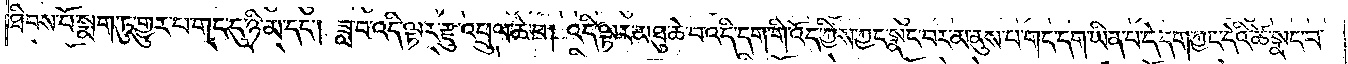ཐིབས་པོ་སྨག་ཏུ་གྱུར་པ་གང་དུ་ཉི་མ་དང༌། ཟླ་བ་འདི་ལྟར་རྫུ་འཕྲུལ་ཆེ་བ། འདི་ལྟར་མཐུ་ཆེ་བ་འདི་དག་གི་འོད་ཀྱིས་ཀྱང་སྣང་བར་མ་ནུས་པ་གང་དག་ཡིན་པ་དེ་དག་ཀྱང་དེའི་ཚེ་སྣང་བ་
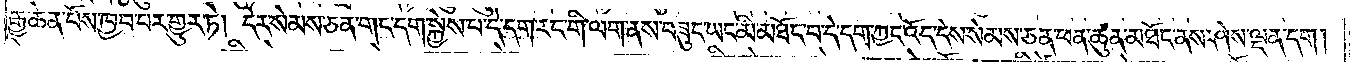རྒྱ་ཆེན་པོས་ཁྱབ་པར་གྱུར་ཏེ། དེར་སེམས་ཅན་གང་དག་སྐྱེས་པ་དེ་དག་རང་གི་ལག་ནས་བཟུང་ཡང་མི་མཐོང་བ་དེ་དག་ཀྱང་འོད་དེས་སེམས་ཅན་ཕན་ཚུན་མཐོང་ནས་ཤེས་ལྡན་དག།
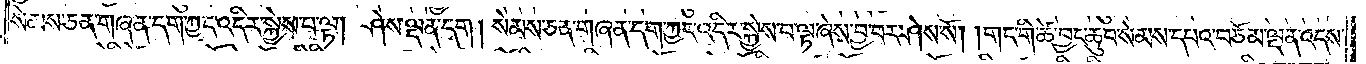སེམས་ཅན་གཞན་དག་ཀྱང་འདིར་སྐྱེས་པ་ལྟ། ཤེས་ལྡན་དག། སེམས་ཅན་གཞན་དག་ཀྱང་འདིར་སྐྱེས་པ་ལྟ་ཞེས་བྱ་བར་ཤེས་སོ། །གང་གི་ཚེ་བྱང་ཆུབ་སེམས་དཔའ་བཅོམ་ལྡན་འདས་
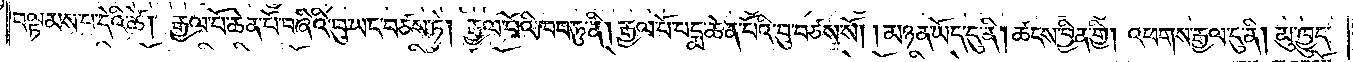བལྟམས་པ་དེའི་ཚེ། རྒྱལ་པོ་ཆེན་པོ་བཞིའི་བུ་ཡང་བཙས་ཏེ། རྒྱལ་པོའི་ཁབ་ཏུ་ནི། རྒྱལ་པོ་པདྨ་ཆེན་པོའི་བུ་བཙས་སོ། །མཉན་ཡོད་དུ་ནི། ཚངས་བྱིན་གྱི། འཕགས་རྒྱལ་དུ་ནི། མུ་ཁྱུད་
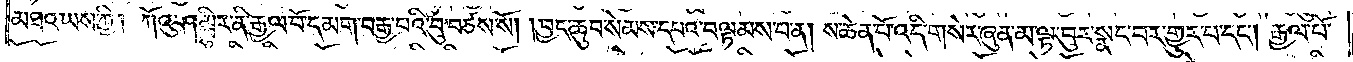མཐའ་ཡས་ཀྱི། ཀོའུ་ཤམྦྷིར་ནི་རྒྱལ་བོ་དམག་བརྒྱ་པའི་བུ་བཙས་སོ། །བྱང་ཆུབ་སེམས་དཔའ་བལྟམས་པ་ན། ས་ཆེན་པོ་འདི་གསེར་ཞུན་མ་ལྟ་བུར་སྣང་བར་གྱུར་པ་དང༌། རྒྱལ་པོ་
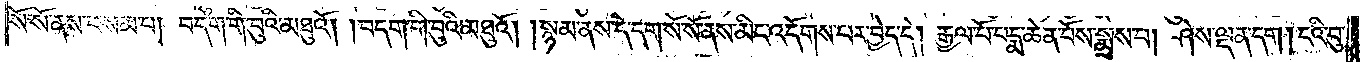སོ་སོ་ནས་བསམ་པ། བདག་གི་བུའི་མཐུའོ། །བདག་གི་བུའི་མཐུའོ། །སྙམ་ནས་དེ་དག་སོ་སོ་ནས་མིང་འདོགས་པར་བྱེད་དེ། རྒྱལ་པོ་པདྨ་ཆེན་པོས་སྨྲས་པ། ཤེས་ལྡན་དག །ངའི་བུ་
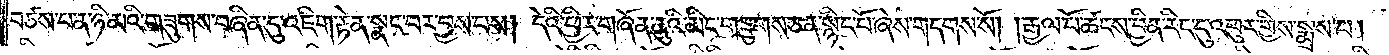བཙས་པ་ན་ཉི་མའི་གཟུགས་བཞིན་དུ་འཇིག་རྟེན་སྣང་བར་བྱས་པས། དེའི་ཕྱིར་གཞོན་ནུའི་མིང་གཟུགས་ཅན་སྙིང་པོ་ཞེས་གདགས་སོ། །རྒྱལ་པོ་ཚངས་བྱིན་རིང་དུ་འཕུར་གྱིས་སྨྲས་པ།
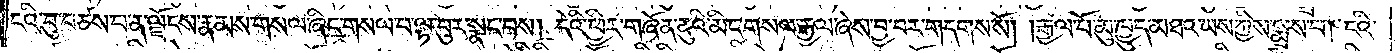ངའི་བུ་བཙས་པ་ན་ལྗོངས་རྣམས་གསལ་ཞིང་གསལ་བ་ལྟ་བུར་སྣང་བས། དེའི་ཕྱིར་གཞོན་ནུའི་མིང་གསལ་རྒྱལ་ཞེས་བྱ་བར་གདགས་སོ། །རྒྱལ་པོ་བུ་ཁྱུད་མཐའ་ཡས་ཀྱིས་སྨྲས་པ། ངའི་
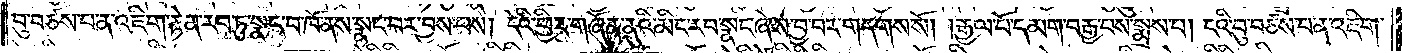བུ་བཙས་པ་ན་འཇིག་རྟེན་རབ་ཏུ་སྣང་བ་ཁོ་ནས་སྣང་བར་བྱས་པས། དེའི་ཕྱིར་གཞོན་ནུའི་མིང་རབ་སྣང་ཞེས་བྱ་བར་གདགས་སོ། །རྒྱལ་པོ་དམག་བརྒྱ་བས་སྨྲས་པ། ངའི་བུ་བཙས་པ་ན་འཇིག་
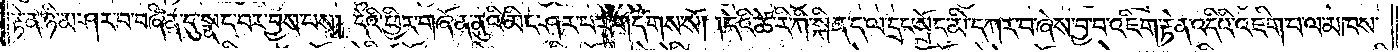རྟེན་ཉི་མ་ཤར་བ་བཞིན་དུ་སྣང་བར་བྱས་པས། དེའི་ཕྱིར་གཞོན་ནུའི་མིང་ཤར་པར་གདགས་སོ། །དེའི་ཚེ་རི་ཀི་སྐིན་ད་ལ་དྲང་སྲོང་མི་དཀར་བ་ཞེས་བྱ་བ་འཇིག་རྟེན་དེའི་འཇིག་པ་ལ་མཁས་
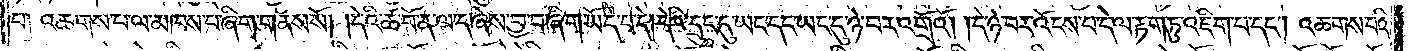པ། འཆགས་པ་ལ་མཁས་པ་ཞིག་གནས་སོ། །དེའི་ཚ་བོ་ན་ལ་ད་ཞེས་བྱ་བ་ཞིག་ཡོད་པ་དེ། དེའི་དྲུང་དུ་ཡང་དང་ཡང་དུ་ཉེ་བར་འགྲོའོ། །དེ་ཉེ་བར་འོངས་པ་དེ་ལ་རྟག་ཏུ་འཇིག་པ་དང༌། འཆགས་པའི་
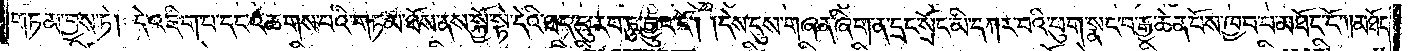གཏམ་བྱས་ཏེ། དེ་འཇིག་པ་དང་འཆགས་པའི་གཏམ་ཐོས་ནས་སྐྱོ་སྟེ་དེའི་ཐད་དུ་རབ་ཏུ་བྱུང་ངོ༌། །དེས་དུས་གཞན་ཞིག་ན་དྲང་སྲོང་མི་དཀར་བའི་ཕུག་སྣང་བ་རྒྱ་ཆེན་པོས་ཁྱབ་པ་མཐོང་ངོ༌། །མཐོང་
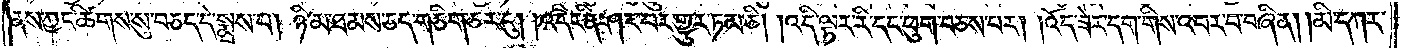ནས་ཀྱང་ཚིགས་སུ་བཅད་དེ་སྨྲས་པ། ཉི་མ་ཐམས་ཅད་གཅིག་ཅར་དུ། །འདིར་ནི་ཤར་བར་འགྱུར་ཏམ་ཅི། འདི་ལྟར་རི་དང་ཕུག་བཅས་པར། །འོད་ཟེར་དག་གིས་འབར་བ་བཞིན། །མི་དཀར་
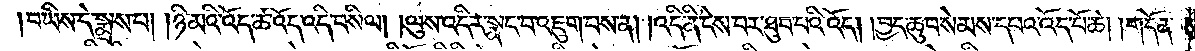བ་ཡིས་དེ་སྨྲས་པ། །ཉི་མའི་འོད་ཚ་འོད་འདི་བསིལ། །ལུས་འདིར་སྣང་བ་འཇུག་པས་ན། །འདི་ནི་ངེས་པར་ཐུབ་པའི་འོད། །བྱང་ཆུབ་སེམས་དཔའ་འོད་པོ་ཆེ། །གདོན་
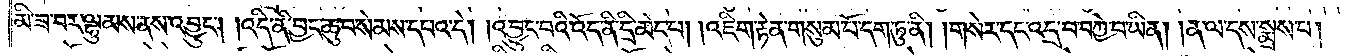མི་ཟ་བར་ལྷུམས་ནས་འབྱུང༌། །འདི་ནི་བྱང་ཆུབ་སེམས་དཔའ་དེ། །འབྱུང་བའི་འོད་ནི་དྲི་མེད་པ། །འཇིག་རྟེན་གསུམ་པོ་དག་ཏུ་ནི། །གསེར་དང་འདྲ་བ་བཀྱེ་བ་ཡིན། །ན་ལ་དས་སྨྲས་པ།
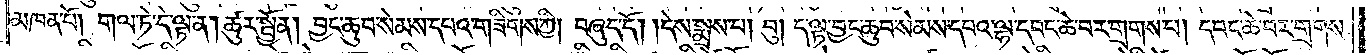མཁན་པོ། གལ་ཏེ་དེ་ལྟ་ན། ཚུར་སྤྱོན། བྱང་ཆུབ་སེམས་དཔའ་གཟིགས་ཀྱི། བཞུད་དོ། །དེས་སྨྲས་པ། བུ། ད་ལྟ་བྱང་ཆུབ་སེམས་དཔའ་ལྷ་དབང་ཆེ་བར་གྲགས་པ། དབང་ཆེ་བར་གྲགས་
